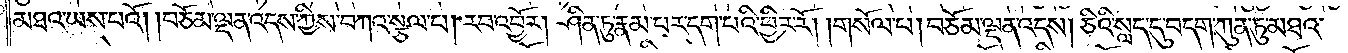མཐའ་ཡས་པའོ། །བཅོམ་ལྡན་འདས་ཀྱིས་བཀའ་སྩལ་པ། རབ་འབྱོར། ཤིན་ཏུ་རྣམ་པར་དག་པའི་ཕྱིར་རོ། །གསོལ་པ། བཅོམ་ལྡན་འདས། ཅིའི་སླད་དུ་བདག་ཀུན་ཏུ་མཐའ་
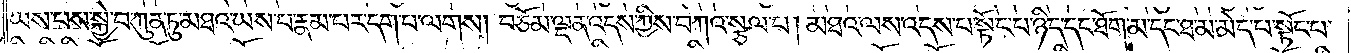ཡས་པས་སྐྱེ་བ་ཀུན་ཏུ་མཐའ་ཡས་པ་རྣམ་པར་དག་པ་ལགས། བཅོམ་ལྡན་འདས་ཀྱིས་བཀའ་སྩལ་པ། མཐའ་ལས་འདས་པ་སྟོང་པ་ཉིད་དང་ཐོག་མ་དང་ཐ་མ་མེད་པ་སྟོང་པ་
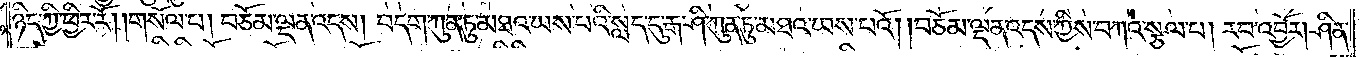ཉིད་ཀྱི་ཕྱིར་རོ། །གསོལ་པ། བཅོམ་ལྡན་འདས། བདག་ཀུན་ཏུ་མཐའ་ཡས་པའི་སླད་དུ་རྒ་ཤི་ཀུན་ཏུ་མཐའ་ཡས་པའོ། །བཅོམ་ལྡན་འདས་ཀྱིས་བཀའ་སྩལ་པ། རབ་འབྱོར། ཤིན་
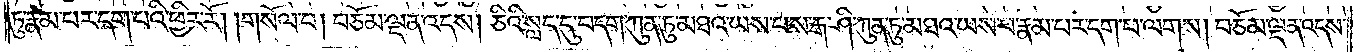ཏུ་རྣམ་པར་དག་པའི་ཕྱིར་རོ། །གསོལ་པ། བཅོམ་ལྡན་འདས། ཅིའི་སླད་དུ་བདག་ཀུན་ཏུ་མཐའ་ཡས་པས་རྒ་ཤི་ཀུན་ཏུ་མཐའ་ཡས་པ་རྣམ་པར་དག་པ་ལགས། བཅོམ་ལྡན་འདས་
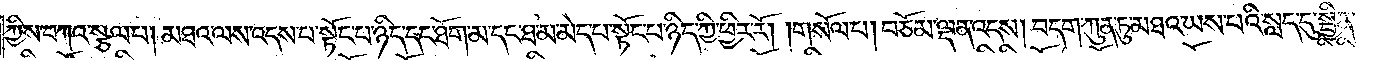ཀྱིས་བཀའ་སྩལ་པ། མཐའ་ལས་འདས་པ་སྟོང་པ་ཉིད་དང་ཐོག་མ་དང་ཐ་མ་མེད་པ་སྟོང་པ་ཉིད་ཀྱི་ཕྱིར་རོ། །གསོལ་པ། བཅོམ་ལྡན་འདས། བདག་ཀུན་ཏུ་མཐའ་ཡས་པའི་སླད་དུ་སྦྱིན་
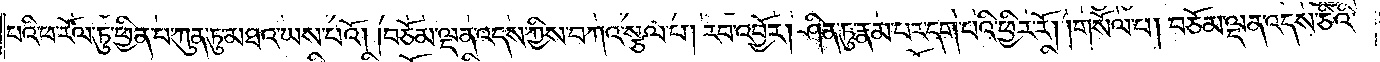པའི་ཕ་རོལ་ཏུ་ཕྱིན་པ་ཀུན་ཏུ་མཐའ་ཡས་པའོ། །བཅོམ་ལྡན་འདས་ཀྱིས་བཀའ་སྩལ་པ། རབ་འབྱོར། ཤིན་ཏུ་རྣམ་པར་དག་པའི་ཕྱིར་རོ། །གསོལ་པ། བཅོམ་ལྡན་འདས་ཅིའི་
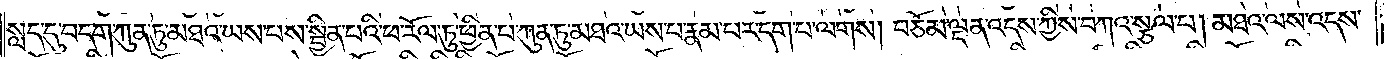སླད་དུ་བདག་ཀུན་ཏུ་མཐའ་ཡས་པས། སྦྱིན་པའི་ཕ་རོལ་ཏུ་ཕྱིན་པ་ཀུན་ཏུ་མཐའ་ཡས་པ་རྣམ་པར་དག་པ་ལགས། བཅོམ་ལྡན་འདས་ཀྱིས་བཀའ་སྩལ་པ། མཐའ་ལས་འདས་
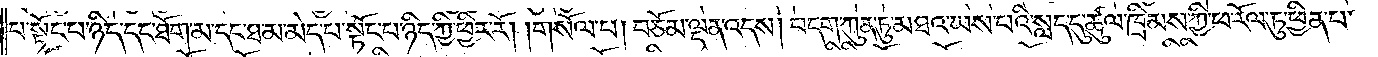པ་སྟོང་པ་ཉིད་དང་ཐོག་མ་དང་ཐ་མ་མེད་པ་སྟོང་པ་ཉིད་ཀྱི་ཕྱིར་རོ། །གསོལ་པ། བཅོམ་ལྡན་འདས། བདག་ཀུན་ཏུ་མཐའ་ཡས་པའི་སླད་དུ་ཚུལ་ཁྲིམས་ཀྱི་ཕ་རོལ་ཏུ་ཕྱིན་པ་
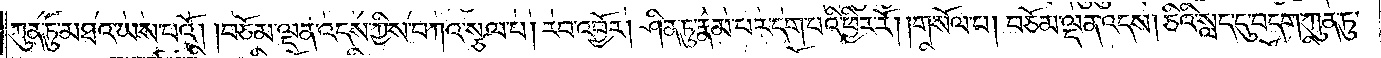ཀུན་ཏུ་མཐའ་ཡས་པའོ། །བཅོམ་ལྡན་འདས་ཀྱིས་བཀའ་སྩལ་པ། རབ་འབྱོར། ཤིན་ཏུ་རྣམ་པར་དག་པའི་ཕྱིར་རོ། །གསོལ་པ། བཅོམ་ལྡན་འདས། ཅིའི་སླད་དུ་བདག་ཀུན་ཏུ་
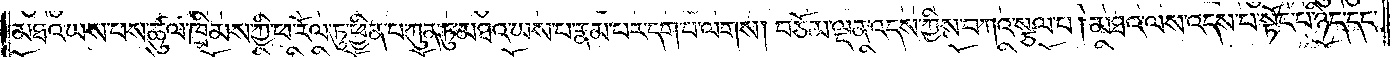མཐའ་ཡས་པས་ཚུལ་ཁྲིམས་ཀྱི་ཕ་རོལ་ཏུ་ཕྱིན་པ་ཀུན་ཏུ་མཐའ་ཡས་པ་རྣམ་པར་དག་པ་ལགས། བཅོམ་ལྡན་འདས་ཀྱིས་བཀའ་སྩལ་པ། མཐའ་ལས་འདས་པ་སྟོང་པ་ཉིད་དང་
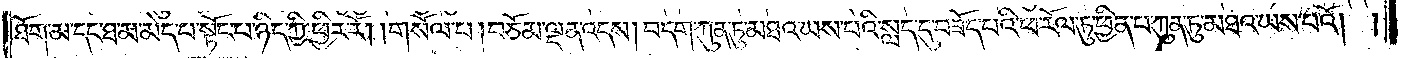ཐོག་མ་དང་ཐ་མ་མེད་པ་སྟོང་པ་ཉིད་ཀྱི་ཕྱིར་རོ། །གསོལ་པ། བཅོམ་ལྡན་འདས། བདག་ཀུན་ཏུ་མཐའ་ཡས་པའི་སླད་དུ་བཟོད་པའི་ཕ་རོལ་ཏུ་ཕྱིན་པ་ཀུན་ཏུ་མཐའ་ཡས་པའོ། །
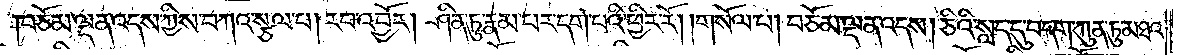བཅོམ་ལྡན་འདས་ཀྱིས་བཀའ་སྩལ་པ། རབ་འབྱོར། ཤིན་ཏུ་རྣམ་པར་དག་པའི་ཕྱིར་རོ། །གསོལ་པ། བཅོམ་ལྡན་འདས། ཅིའི་སླད་དུ་བདག་ཀུན་ཏུ་མཐའ་
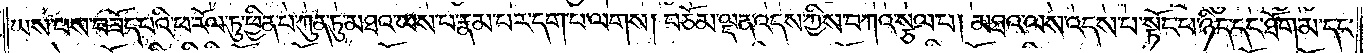ཡས་པས་བཟོད་པའི་ཕ་རོལ་ཏུ་ཕྱིན་པ་ཀུན་ཏུ་མཐའ་ཡས་པ་རྣམ་པར་དག་པ་ལགས། བཅོམ་ལྡན་འདས་ཀྱིས་བཀའ་སྩལ་པ། མཐའ་ལས་འདས་པ་སྟོང་པ་ཉིད་དང་ཐོག་མ་དང་
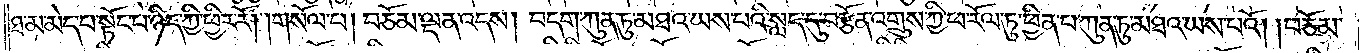ཐ་མ་མེད་པ་སྟོང་པ་ཉིད་ཀྱི་ཕྱིར་རོ། །གསོལ་པ། བཅོམ་ལྡན་འདས། བདག་ཀུན་ཏུ་མཐའ་ཡས་པའི་སླད་དུ་བརྩོན་འགྲུས་ཀྱི་ཕ་རོལ་ཏུ་ཕྱིན་པ་ཀུན་ཏུ་མཐའ་ཡས་པའོ། །བཅོམ་
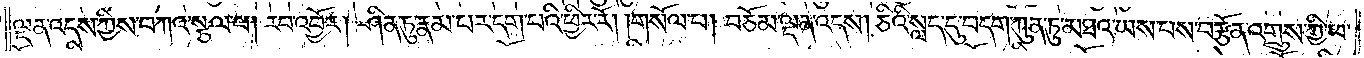ལྡན་འདས་ཀྱིས་བཀའ་སྩལ་པ། རབ་འབྱོར། ཤིན་ཏུ་རྣམ་པར་དག་པའི་ཕྱིར་རོ། །གསོལ་པ། བཅོམ་ལྡན་འདས། ཅིའི་སླད་དུ་བདག་ཀུན་ཏུ་མཐའ་ཡས་པས་བརྩོན་འགྲུས་ཀྱི་ཕ་
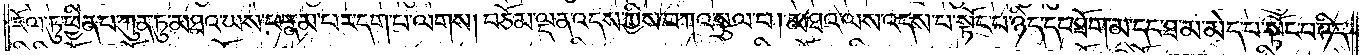རོལ་ཏུ་ཕྱིན་པ་ཀུན་ཏུ་མཐའ་ཡས་པ་རྣམ་པར་དག་པ་ལགས། བཅོམ་ལྡན་འདས་ཀྱིས་བཀའ་སྩལ་པ། མཐའ་ལས་འདས་པ་སྟོང་པ་ཉིད་དང་ཐོག་མ་དང་ཐ་མ་མེད་པ་སྟོང་པ་ཉིད་
